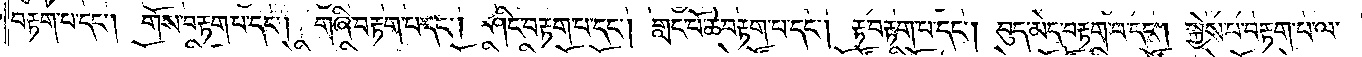བརྟག་པ་དང༌། གོས་བརྟག་པ་དང༌། གཞི་བརྟག་པ་དང༌། ཤིང་བརྟག་པ་དང༌། གླང་པོ་ཆེ་བརྟག་པ་དང༌། རྟ་བརྟག་པ་དང༌། བུད་མེད་བརྟག་པ་དང༌། སྐྱེས་པ་བརྟག་པ་ལ་
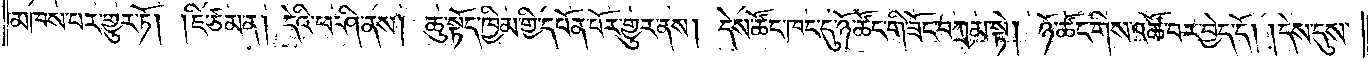མཁས་པར་གྱུར་ཏོ། །ཇི་ཙམ་ན། དེའི་ཕ་ཤི་ནས། ཆུ་སྟོད་ཁྱིམ་གྱི་དཔོན་པོར་གྱུར་ནས། དེས་ཚོང་ཁང་དུ་ཉོ་ཚོང་གི་ཟོང་བཀྲམ་སྟེ། ཉོ་ཚོང་གིས་འཚོ་བར་བྱེད་དོ། །དེས་དུས་
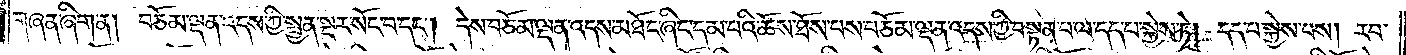གཞན་ཞིག་ན། བཅོམ་ལྡན་འདས་ཀྱི་སྤྱན་སྔར་སོང་བ་དང༌། དེས་བཅོམ་ལྡན་འདས་མཐོང་ཞིང་དམ་པའི་ཆོས་ཐོས་པས་བཅོམ་ལྡན་འདས་ཀྱི་བསྟན་པ་ལ་དད་པ་སྐྱེས་ཏེ། དད་པ་སྐྱེས་པས། རབ་
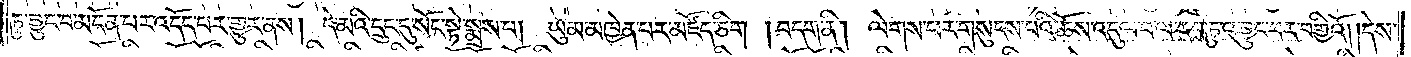ཏུ་བྱུང་བ་མངོན་པར་འདོད་པར་གྱུར་ནས། དེ་མའི་དྲུང་དུ་སོང་སྟེ་སྨྲས་པ། ཡུམ་མཁྱེན་པར་མཛོད་ཅིག །བདག་ནི། ལེགས་པར་གསུངས་པའི་ཆོས་འདུལ་བ་ལ་རབ་ཏུ་འབྱུང་བར་བགྱིའོ། །དེས་
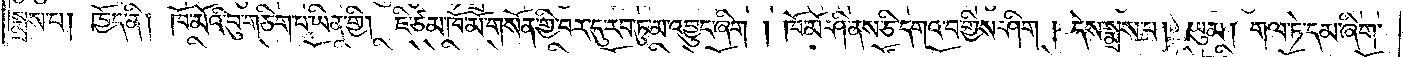སྨྲས་པ། ཁྱོད་ནི། ཁོ་མོའི་བུ་གཅིག་པ་ཡིན་གྱི། ཇི་ཙམ་ཁོ་མོ་གསོན་གྱི་བར་དུ་རབ་ཏུ་མ་འབྱུང་ཞིག །ཁོ་མོ་ཤི་ནས་ཅི་དགའ་བ་གྱིས་ཤིག། དེས་སྨྲས་པ། ཡུམ། གལ་ཏེ་དམ་ཞིག་
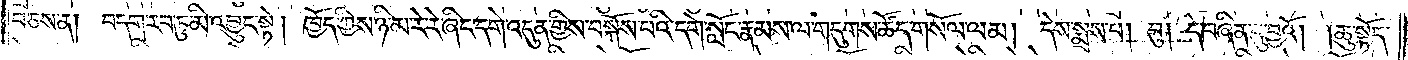བཅས་ན། བདག་རབ་ཏུ་མི་འབྱུང་སྟེ། ཁྱོད་ཀྱིས་ཉི་མ་རེ་རེ་ཞིང་དགེ་འདུན་གྱིས་བསྐོས་པའི་དགེ་སློང་རྣམས་ལ་གདུགས་ཚོད་གསོལ་ལམ། དེས་སྨྲས་པ། བུ། དེ་བཞིན་དུ་བྱའོ། །ཆུ་སྟོད་
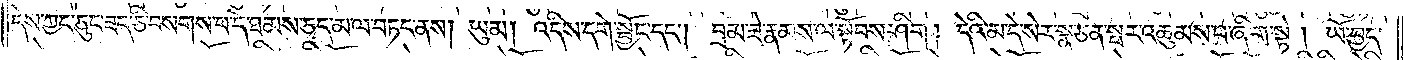དེས་ཀྱང་ཅུང་ཟད་ཅི་བསགས་པ་དེ་ཐམས་ཅད་མ་ལ་བཏང་ནས། ཡུམ། འདིས་དགེ་སྦྱོང་དང༌། བྲམ་ཟེ་རྣམས་ལ་སྟོབས་ཤིག། དེའི་མ་དེ་སེར་སྣ་ཅན་སྤར་འཆུམས་པ་ཞིག་སྟེ། ཡོ་བྱད་
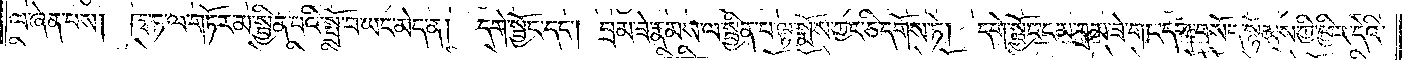ལ་ཞེན་པས། ཁྭ་ཏ་ལ་གཏོར་མ་སྦྱིན་པའི་སྤྲོ་བ་ཡང་མེད་ན། དགེ་སྦྱོང་དང༌། བྲམ་ཟེ་རྣམས་ལ་སྦྱིན་པ་ལྟ་སྨོས་ཀྱང་ཅི་དགོས་ཏེ། དགེ་སྦྱོང་ངམ་བྲམ་ཟེ་གང་དག་བསོད་སྙོམས་ཀྱི་ཕྱིར་དེའི་
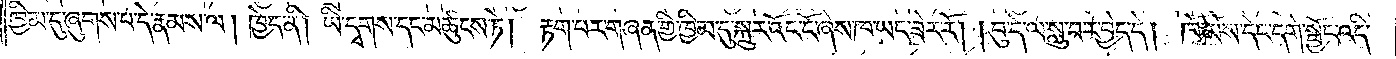ཁྱིམ་དུ་ཞུགས་པ་དེ་རྣམས་ལ། ཁྱེད་ནི། ཡི་དྭགས་དང་མཚུངས་ཏེ། རྟག་པར་གཞན་གྱི་ཁྱིམ་དུ་སྐྲུར་འོང་ངོ་ཞེས་ཁ་ཡང་ཟེར་རོ། །བུ་དེ་ལ་སླུ་བར་བྱེད་དེ། ཁོ་མོས་དེང་དགེ་སྦྱོང་འདི་
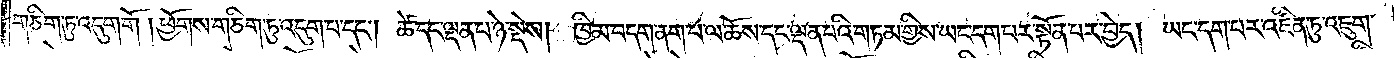གཅིག་ཏུ་འདུག་གོ །ཕྱོགས་གཅིག་ཏུ་འདུག་པ་དང༌། ཚེ་དང་ལྡན་པ་ཉེ་སྡེས། ཁྱིམ་བདག་ནག་པ་ལ་ཆོས་དང་ལྡན་པའི་གཏམ་གྱིས་ཡང་དག་པར་སྟོན་པར་བྱེད། ཡང་དག་པར་འཛིན་ཏུ་འཇུག་
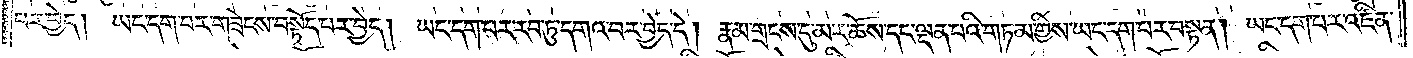པར་བྱེད། ཡང་དག་པར་གཟེངས་བསྟོད་པར་བྱེད། ཡང་དག་པར་རབ་ཏུ་དགའ་བར་བྱེད་དེ། རྣམ་གྲངས་དུ་མར་ཆོས་དང་ལྡན་པའི་གཏམ་གྱིས་ཡང་དག་པར་བསྟན། ཡང་དག་པར་འཛིན་
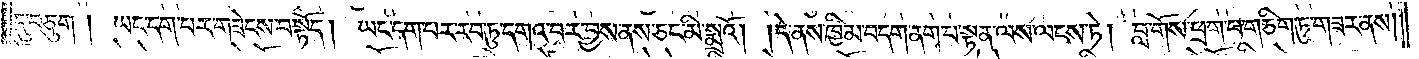དུ་བཅུག །ཡང་དག་པར་གཟེངས་བསྟོད། ཡང་དག་པར་རབ་ཏུ་དགའ་བར་བྱས་ནས་ཅང་མི་སྨྲའོ། །དེ་ནས་ཁྱིམ་བདག་ནག་པ་སྟན་ལས་ལངས་ཏེ། བླ་གོས་ཕྲག་པ་གཅིག་ཏུ་གཟར་ནས།
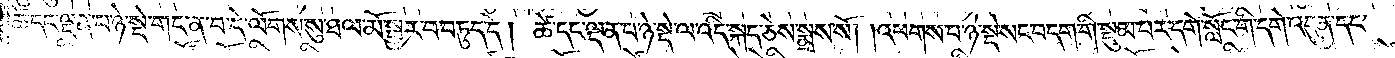ཚེ་དང་ལྡན་པ་ཉེ་སྡེ་གང་ན་བ་དེ་ལོགས་སུ་ཐལ་མོ་སྦྱར་བ་བཏུད་དེ། ཚེ་དང་ལྡན་པ་ཉེ་སྡེ་ལ་འདི་སྐད་ཅེས་སྨྲས་སོ། །འཕགས་པ་ཉེ་སྡེ་སང་བདག་གི་སྡུམ་པར་དགེ་སློང་གི་དགེ་འདུན་དང་
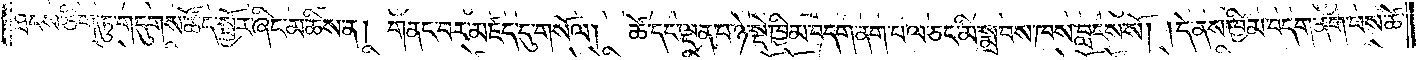ཐབས་ཅིག་ཏུ་གདུགས་ཚོད་སྦྱོར་ཞིང་མཆིས་ན། གནང་བར་མཛད་དུ་གསོལ། ཚེ་དང་ལྡན་པ་ཉེ་སྡེ་ཁྱིམ་བདག་ནག་པ་ལ་ཅང་མི་སྨྲ་བས་ཁས་བླངས་སོ། །དེ་ནས་ཁྱིམ་བདག་ནག་པས་ཚེ་
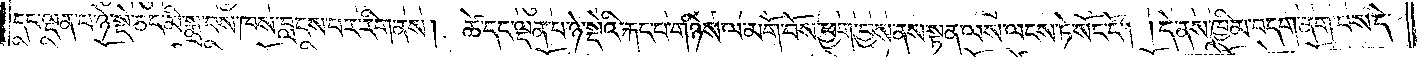དང་ལྡན་པ་ཉེ་སྡེ་ཅང་མི་སྨྲ་བས་ཁས་བླངས་པར་རིག་ནས། ཚེ་དང་ལྡན་པ་ཉེ་སྡེའི་རྐང་པ་གཉིས་ལ་མགོ་བོས་ཕྱག་བྱས་ནས་སྟན་ལས་ལངས་ཏེ་སོང་ངོ༌། །དེ་ནས་ཁྱིམ་བདག་ནག་པས་དེ་
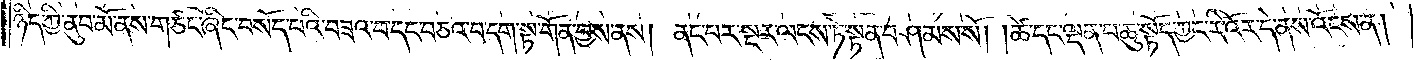ཉིད་ཀྱི་ནུབ་མོ་ནས་གཙང་ཞིང་བསོད་པའི་བཟའ་བ་དང་བཅའ་བ་དག་སྟ་གོན་བྱས་ནས། ནང་པར་སྔར་ལངས་ཏེ་སྟན་བཤམས་སོ། །ཚེ་དང་ལྡན་པ་ཆུ་སྟོད་ཀྱང་རི་འོར་དེ་ནས་འོངས་ན།
